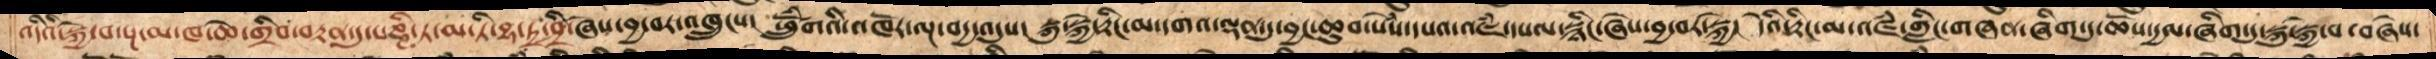འདིའི་སྐྱེ་བ་སྔ་མ་ཁ་ཆེ་གྲིབ་བརྟན་དུ་པཎྚི་ཏ་མ་ཏི་བྷ་དྲ་ཤྲི་ཞེས་བྱ་བར་འཁྲུངས།  ཕྲོུཾགའི་འཁོར་ལྔ་བདྱ་འདུས།  སྐུ་སྐྱེ་རྟིང་མ་དགའ་ལྡན་དུ་བྱང་ཆུབ་སེཾས་དཔའ་འཇཾ་དཔལ་སྙིང་ཞེས་བྱ་བར་སྐྱེ།  དེའི་རྟིང་མ་འཛཾ་གླིང་གཞན་ཞིག་ཏུ་ཆོས་དྱལ་ཞིག་དུ་སྐུ་སྐྱེ་བ་བཞེས་
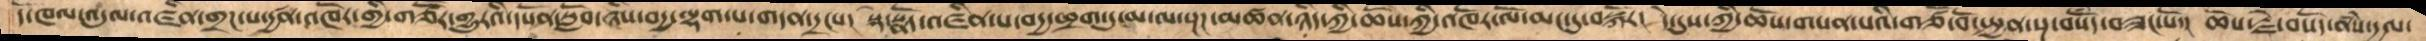དོ་ཁལ་འདུལ་འཛིན་གྲཌ་པ་དྱཚན་འཁོར་གྱི་གཙཽར་གྱུརའི་དཔོན་སློབ་ཉིས་བདྱ་ལྷག་པ་གདན་དྲངས།  སྡེ་སྣོད་འཛིན་པ་བདྱ་ཕྲག་དུ་མ་ལ་སྔཌ་མཚན་ཉིད་ཀྱི་ཆོས་ཀྱི་འཁོར་ལོ་མང་དུ་བསྐོར།  དེ་དུས་ཀྱི་ཆོས་གསན་པའི་གཙོ་བོ་སྤྱན་སྔ་བསོཾད་བཟང་པོ།  ཆོས་རྗེ་བསོད་ནཾས་་དྱལ་
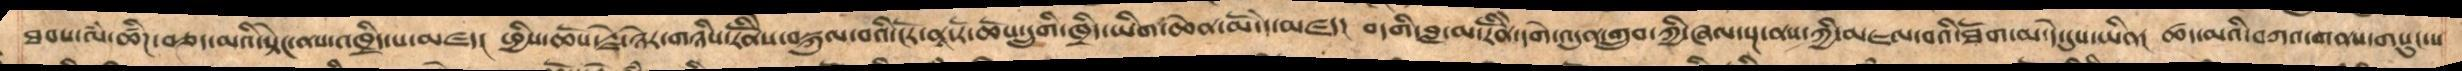ཐབས་ལཾ་ཚིཌ་བཅད་མའི་སྟེང་ནས་ཁྲིད་པར་མཛད།  ཕྱིས་ཆོས་རྗེ་ཉེར་གཉིས་རིནོེས་བསྐུལ་བའི་ངོར་ནཱ་རོ་ཆོས་དྲུགི་ཁྲིད་ཡིག་ཆེན་མོ་དེ་མཛད།  བདགི་བླ་མ་རིོེནདགེ་འདུན་གྲུབ་་ཀྱི་ཞལ་སྔ་ནས་ཀྱི་མཇལ་བའི་ཐོག་མ་དེ་དུས་ཡིན།  ཚད་མའི་དཀའ་གནས་གསུང་པ་
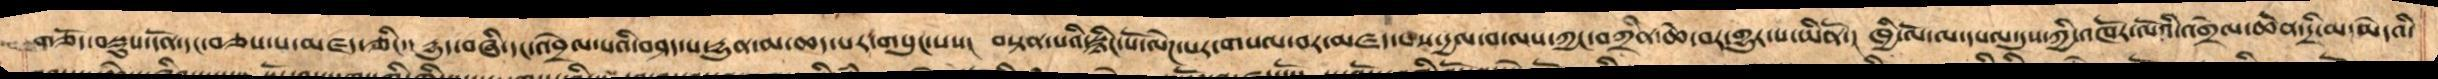གཅོད་བསྡུས་དོན་དང་བཅས་པ་མཛད་ཅིང་།  དྱུད་སྡེ་བཞི་དང་འབྲེལ་པའི་བཤད་པ་དྱུན་མ་ཆད་པར་གསུང་པས།  བསྟན་པའི་སྙིང་པོ་ལེཌ་པར་གསལ་བར་མཛད་པས་དྱལ་བ་ལས་ཀྱང་བཀྲིན་ཆེ་བར་གྱུར་པ་ཡིནོ།  ཁྱི་ལོ་ལ་དཔལ་དུས་ཀྱི་འཁོར་ལོའི་འགྲེལ་ཆེན་དྲི་མ་མེདའི་
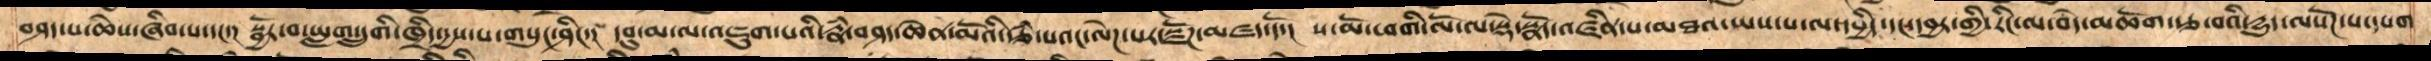བཤད་པ་ཆེས་ཞིབ་པ་དང་།  སྦྱོར་བ་ཡླག་དྲུགི་ཁྲིད་དྱས་པ་གསུང་ཤིང་།  དབུ་མ་ལ་འཇུག་པའི་རྣཾ་བཤད་ཆེན་མོའི་རྩཾ་པའང་ལེཌ་པར་སྫོཌ་མཛད་དོ།  ས་མོ་ཕགི་ལོ་ལ་སྡེ་སྣོད་འཛིན་པ་མཐའ་ཡས་པ་ལ་དཔྱིད་དང་དབྱར་གྱི་རིང་ལ་བདེ་མཆོག་རྩ་བའི་དྱུད་ལསོཌ་པ་དཔག
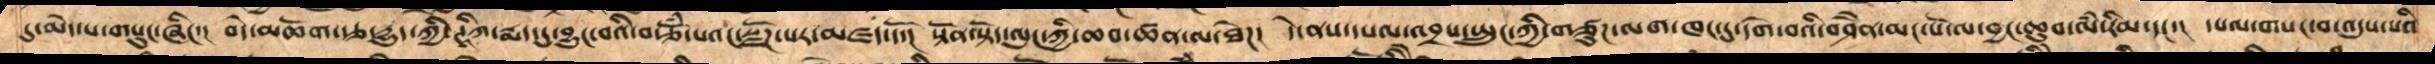དུ་མེད་པ་གསུང་ཞིང་།  བདེ་མཆོག་རྩ་དྱུད་ཀྱི་ཊཱིཀ་རྨད་དུ་བྱུང་བའི་བརྩོཾ་པ་སྫོཌ་པར་མཛད་དོ།  སྟོན་སྟོད་ལུང་གི་ཆབ་ཚན་ལ་ཐེཌ།  དེ་ནས་དཔལ་འབྲས་སྤུང་ཀྱི་གཙུཌ་ལག་ཁང་དུ་དགེ་བའི་བཤཻན་མང་པོ་ལ་བྱང་ཆུབ་ལཾ་རིམ་དང་།  དཔལ་གསང་བ་འདུས་པའི་
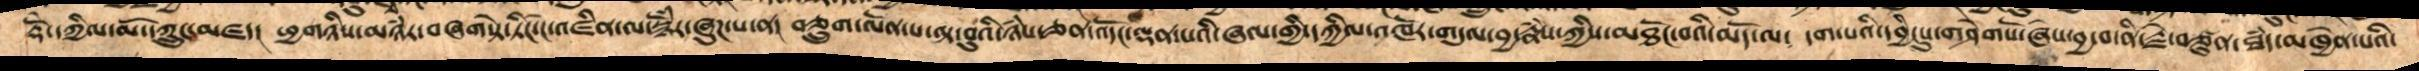རྡོ་ེདཀྱིལ་མོ་ཀྲུང་མཛད།  ཕྱགཉིས་མཉཾར་བཞགསྟེ་ཏིང་ངེ་འཛིན་ལ་སྙོཾར་ཞུཌ་པ་ན།  བཅྲུག་ལོན་པ་ལྟ་བུའི་ཉཾས་ཅན་འོདང་ལྡན་པའི་ཞལ་གྱི་དཀྱིལ་འཁོར་གདུལ་བྱ་རྣཾས་ཀྱིས་མཐོང་བའི་མོད་ལ་ དག་པའི་དབྱིངསུ་གཤེགསོ་ཞེས་བྱ་བ་ནི་རྗེ་བཙུན་ཐཾད་མཁྱེན་པའི་
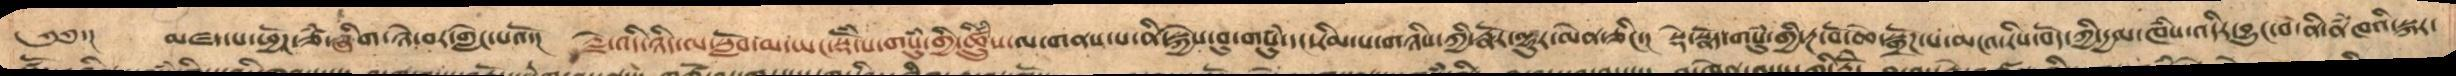༄༅་།     མཛད་པ་ཕྱོཌ་ཙཾ་ཞིག་ཉེ་བར་གླེང་པའོ།  རྗེ་འདི་ཉིད་ལ་སློབ་མ་ཡང་སྡོཾ་པ་གསུཾ་གྱི་ཚྲིུཾས་ལ་གནས་པ་ནི་སྐྱེས་བུ་གསུཾ་དང་རིམ་པ་གཉིས་ཀྱི་རྣོར་ལྷུར་ལེན་ཅིང་།  སྡེ་སྣོད་གསུཾ་གྱི་རྔ་བོ་ཆེ་སྒྲོཌ་པ་མངའ་རིས་བོད་ཀྱི་དྱལ་ཁཾས་འདིར་བྱུང་བ་ནི་ནཾཁའི་སྐར་
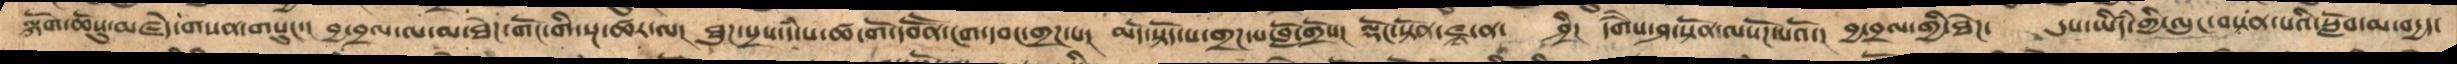ལྐོག་ཆོསུ་མཛདེ་གསན་གསུང།  བྱ་བྲལ་ལ་མ་ཐེཌ་གོང་གི་སྔ་ཚར་ལ།  ཐུཌ་སྲས་དཾ་པ་ཚ་གོ་དབོནོ་ངག་དབང་གྲཌ་པ།  མདོ་སྟོད་པ་གྲཌ་པ་བློ་གྲོས།  ལྡོང་སྟོན་ཛཱ་ན་ ཤྲི།  དགཻས་ཤ་སྟོན་ལསོཌ་པའོ།  བྱ་བྲལ་གྱི་ཐེཌ་   དུས་ཡིདཾ་གྱི་ལུང་བསྟན་པའི་སློབ་མ་བདྱད་
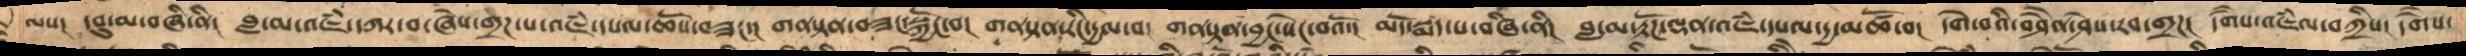ལས།  དབུ་མ་བཞི་ནི།  བླ་མ་འཇཾ་དཀར་བ་ཞེས་གྲཌ་པ་འཇཾ་དཔལ་ཆོས་བཟང་།  གནསྟན་བཟང་སྐྱོང་བ།  གནསྟན་རིང་དྱལ་བ།  གནསྟན་བྱང་སེང་བའོ།  མདོ་སྨད་པ་བཞི་ནི།  བླ་མ་རྟོཌ་ལྡན་འཇཾ་དཔལ་དྱ་མཚོ་བ།  དགེ་བའི་བཤཻན་ཤེས་རབ་གྲཌ།  དགཻས་འཇཾལ་བཀྲིས། དགཻས་
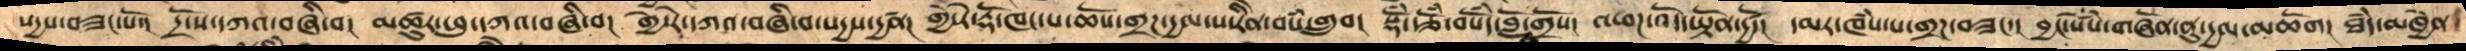སདྱས་བཟང་པོ།  དྲོ་ས་དཀའ་བཞི་བ།  མཚུར་བུ་དཀའ་བཞི་བ།  གྱེ་རེ་དཀའ་བཞི་བ་སདྱས་དྱཚན།  གྱེ་རེ་རྡོ་ཁང་པ་ཆོས་གྲཌ་དྱལ་པ་རིནེ་བསཾ་འགྲུབ།  སྡོཾ་རྩོཾ་བསོཾད་བློ་གྲོས།  འཕཌ་འོད་ཡྟོན་དྱཚོ།  དམར་ཁཾས་པ་གྲཌ་བཟང་།  བྱང་སེཾསགཞོན་ནུ་དྱལ་མཆོག།  ཐཾད་མཁྱེན་
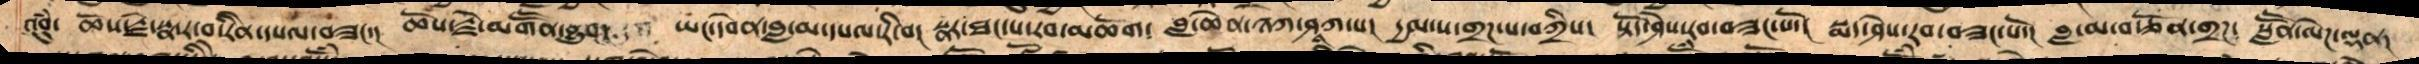འབུཾ།  ཆོས་རྗེ་སྣ་ར་བ་རིནེ་དཔལ་བཟང་།  ཆོས་རྗེ་མགོནོ་བྱུབ།  ཡང་དབེན་བླ་མ་དཔལ་རི་བ།  སྣར་ཐང་པ་རབ་མཆོག།  བླ་ཆེན་ཉཀ་ཤཱཀ་པ།  དྱལ་པ་གྲཌ་པ་བཀྲིས།  སྟོད་ཤེས་རབ་བཟང་པོ་།  སྨད་ཤེས་རབ་བཟང་པོ་།  བླ་མ་བརྩོན་གྲཌ།  སླཽན་ལེཌ་ལྡན།
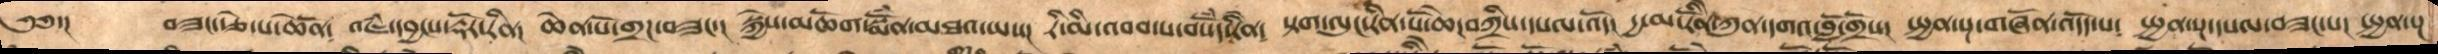༄༅་།    བཟང་རྩེ་པ་ཆེནོ༴  འཇཾ་དབྱངས་རྡོར་རིན།  ཆེན་པོ་གྲཌ་བཟང་།  སྐྱེས་མཆོག་སྨོཾན་མཐའ་ཡས།  རི་མི་འབབ་པ་བསོཾད་རིནེ༴  སྟག་ལུང་རིན་པོ་ཆེ།བཀྲིས་དཔལ་འོད། དྱ་མ་རིནོ་ེ་ཀུན་དགའ་བློ་གྲོས།  སྤྱན་སྔ་གཞོན་འོདད་པ༴  སྤྱན་སྔ་དཔལ་བཟང་པ།  སྤྱན་སྔ་
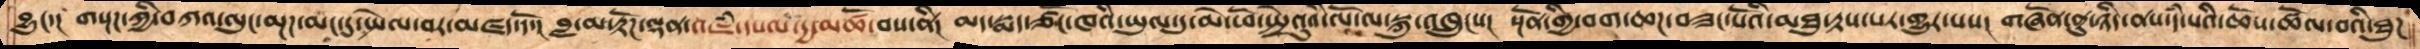བྱུང་། གསྔཌ་ཀྱི་བཀའ་ལུང་མྔཌ་མང་དུ་སྤེལ་བར་མཛད་དོ་།  བླ་མ་རྟོཌ་ལྡན་འཇཾ་དཔལ་དྱ་མཚོ་བས་ནི།  མད་སྨད་ཙོང་ཁའི་ཡུལ་དུ་མེ་ཕོ་སྤྲེུའུའི་ལོ་ལ་ལསྐུ་འཁྲུངས།  སྔོན་གྱི་བག་ཆཌ་བཟང་པོའི་མཐུ་རྟས་པར་གྱུར་པས།  གཞོན་ནུ་ཉིད་ནས་དཾ་པའི་ཆོས་ཚོལ་བའི་ཐུཌ
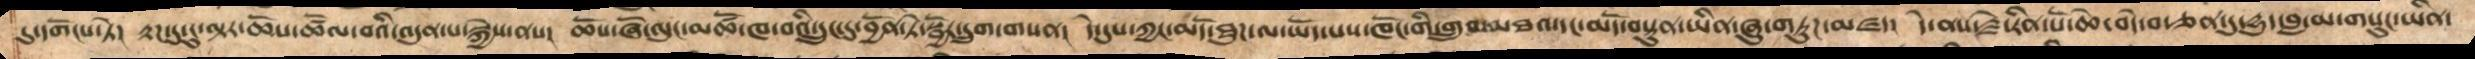དུ་དགོངས་ཏེ།  རྟག་ཏུ་ངུ་ལྟར་ཆོས་ཚོལ་བའི་འདུན་པ་སྐྱེས་ནས།  ཆོས་རྗེ་ཞོ་ལུང་མཚོ་ཁ་བའི་དྲུང་དུ་བྱོན་ཏེ་སྦྱོར་དྲུག་གསན།  དེ་དུས་ཀྱང་མདོ་ཐུཌ་ལ་ཡོད་པས་ཁོང་གི་གྲུབ་མཐའ་དང་མདོ་བསྟུན་ཡིན་ཞུ་གཏུཌ་མཛད།  དེ་ནས་རྗེ་རིན་པོ་ཆེ་བདེ་བ་ཅན་དུ་དྱུད་བླ་མ་གསུང་ཡིན་
